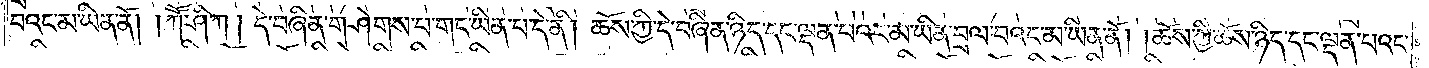བའང་མ་ཡིན་ནོ། །ཀཽ་ཤི་ཀ །དེ་བཞིན་གཤེགས་པ་གང་ཡིན་པ་དེ་ནི། ཆོས་ཀྱི་དེ་བཞིན་ཉིད་དང་ལྡན་པའང་མ་ཡིན་བྲལ་བའང་མ་ཡིན་ནོ། །ཆོས་ཀྱི་ཆོས་ཉིད་དང་ལྡན་པའང་
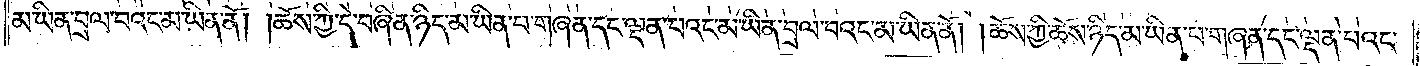མ་ཡིན་བྲལ་བའང་མ་ཡིན་ནོ། །ཆོས་ཀྱི་དེ་བཞིན་ཉིད་མ་ཡིན་པ་གཞན་དང་ལྡན་པའང་མ་ཡིན་བྲལ་བའང་མ་ཡིན་ནོ། །ཆོས་ཀྱི་ཆོས་ཉིད་མ་ཡིན་པ་གཞན་དང་ལྡན་པའང་
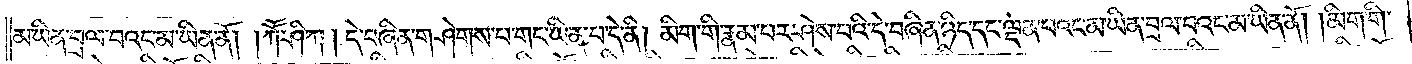མ་ཡིན་བྲལ་བའང་མ་ཡིན་ནོ། །ཀཽ་ཤི་ཀ །དེ་བཞིན་གཤེགས་པ་གང་ཡིན་པ་དེ་ནི། མིག་གི་རྣམ་པར་ཤེས་པའི་དེ་བཞིན་ཉིད་དང་ལྡན་པའང་མ་ཡིན་བྲལ་བའང་མ་ཡིན་ནོ། །མིག་གི་
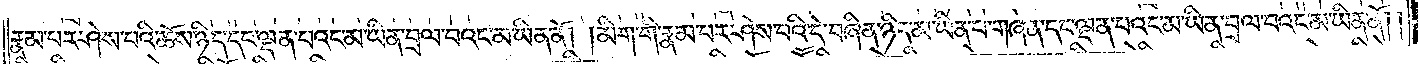རྣམ་པར་ཤེས་པའི་ཆོས་ཉིད་དང་ལྡན་པའང་མ་ཡིན་བྲལ་བའང་མ་ཡིན་ནོ། །མིག་གི་རྣམ་པར་ཤེས་པའི་དེ་བཞིན་ཉིད་མ་ཡིན་པ་གཞན་དང་ལྡན་པའང་མ་ཡིན་བྲལ་བའང་མ་ཡིན་ནོ། །
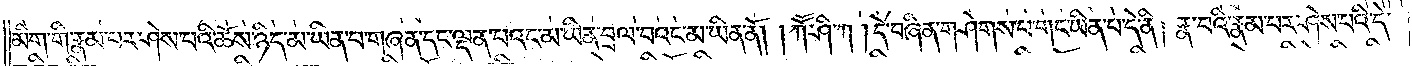མིག་གི་རྣམ་བར་ཤེས་པའི་ཆོས་ཉིད་མ་ཡིན་པ་གཞན་དང་ལྡན་པའང་མ་ཡིན་བྲལ་བའང་མ་ཡིན་ནོ། །ཀཽ་ཤི་ཀ །དེ་བཞིན་གཤེགས་པ་གང་ཡིན་པ་དེ་ནི། རྣ་བའི་རྣམ་པར་ཤེས་པའི་དེ་
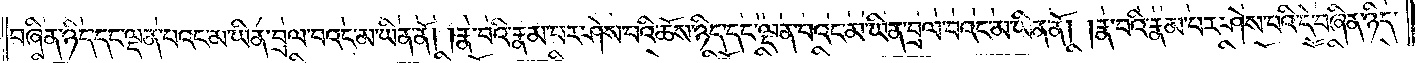བཞིན་ཉིད་དང་ལྡན་པའང་མ་ཡིན་བྲལ་བའང་མ་ཡིན་ནོ། །རྣ་བའི་རྣམ་པར་ཤེས་པའི་ཆོས་ཉིད་དང་ལྡན་པའང་མ་ཡིན་བྲལ་བའང་མ་ཡིན་ནོ། །རྣ་བའི་རྣམ་པར་ཤེས་པའི་དེ་བཞིན་ཉིད་
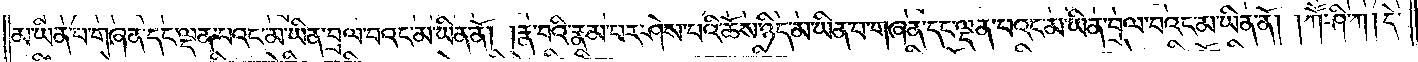མ་ཡིན་པ་གཞན་དང་ལྡན་པའང་མ་ཡིན་བྲལ་བའང་མ་ཡིན་ནོ། །རྣ་བའི་རྣམ་པར་ཤེས་པའི་ཆོས་ཉིད་མ་ཡིན་པ་གཞན་དང་ལྡན་པའང་མ་ཡིན་བྲལ་བའང་མ་ཡིན་ནོ། །ཀཽ་ཤི་ཀ །དེ་
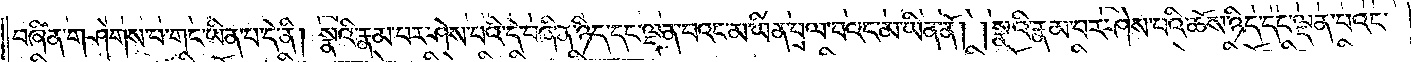བཞིན་གཤེགས་པ་གང་ཡིན་པ་དེ་ནི། སྣའི་རྣམ་པར་ཤེས་པའི་དེ་བཞིན་ཉིད་དང་ལྡན་པའང་མ་ཡིན་བྲལ་བའང་མ་ཡིན་ནོ། །སྣའི་རྣམ་པར་ཤེས་པའི་ཆོས་ཉིད་དང་ལྡན་པའང་
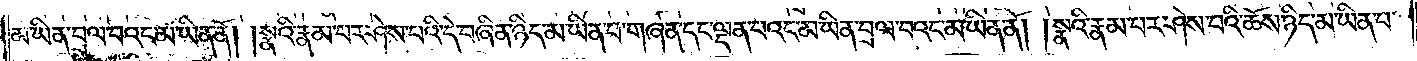མ་ཡིན་བྲལ་བའང་མ་ཡིན་ནོ། །སྣའི་རྣམ་པར་ཤེས་པའི་དེ་བཞིན་ཉིད་མ་ཡིན་པ་གཞན་དང་ལྡན་པའང་མ་ཡིན་བྲལ་བའང་མ་ཡིན་ནོ། །སྣའི་རྣམ་པར་ཤེས་པའི་ཆོས་ཉིད་མ་ཡིན་པ་
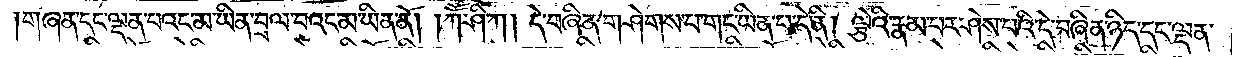གཞན་དང་ལྡན་པའང་མ་ཡིན་བྲལ་བའང་མ་ཡིན་ནོ། །ཀཽ་ཤི་ཀ །དེ་བཞིན་གཤེགས་པ་གང་ཡིན་པ་དེ་ནི། ལྕེའི་རྣམ་པར་ཤེས་པའི་དེ་བཞིན་ཉིད་དང་ལྡན་
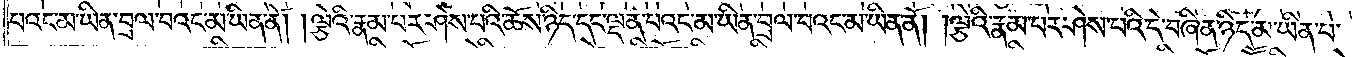པའང་མ་ཡིན་བྲལ་བའང་མ་ཡིན་ནོ། །ལྕེའི་རྣམ་པར་ཤེས་པའི་ཆོས་ཉིད་དང་ལྡན་པའང་མ་ཡིན་བྲལ་བའང་མ་ཡིན་ནོ། །ལྕེའི་རྣམ་པར་ཤེས་པའི་དེ་བཞིན་ཉིད་མ་ཡིན་པ་
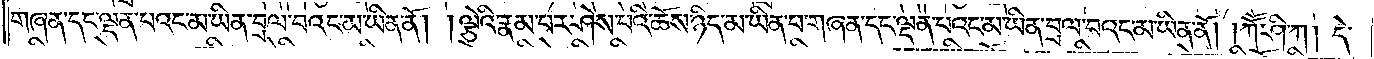གཞན་དང་ལྡན་པའང་མ་ཡིན་བྲལ་བའང་མ་ཡིན་ནོ། །ལྕེའི་རྣམ་པར་ཤེས་པའི་ཆོས་ཉིད་མ་ཡིན་པ་གཞན་དང་ལྡན་པའང་མ་ཡིན་བྲལ་བའང་མ་ཡིན་ནོ། །ཀཽ་ཤི་ཀ། དེ་
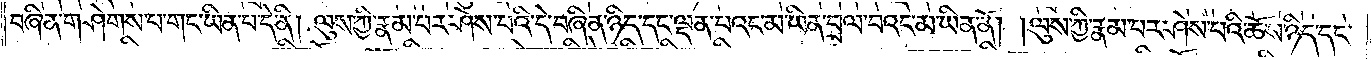བཞིན་གཤེགས་པ་གང་ཡིན་པ་དེ་ནི། ལུས་ཀྱི་རྣམ་པར་ཤེས་པའི་དེ་བཞིན་ཉིད་དང་ལྡན་པའང་མ་ཡིན་བྲལ་བའང་མ་ཡིན་ནོ། །ལུས་ཀྱི་རྣམ་པར་ཤེས་པའི་ཆོས་ཉིད་དང་
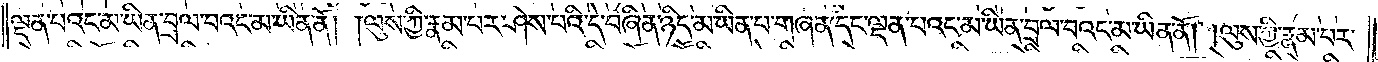ལྡན་པའང་མ་ཡིན་བྲལ་བའང་མ་ཡིན་ནོ། །ལུས་ཀྱི་རྣམ་པར་ཤེས་པའི་དེ་བཞིན་ཉིད་མ་ཡིན་པ་གཞན་དང་ལྡན་པའང་མ་ཡིན་བྲལ་བའང་མ་ཡིན་ནོ། །ལུས་ཀྱི་རྣམ་པར་
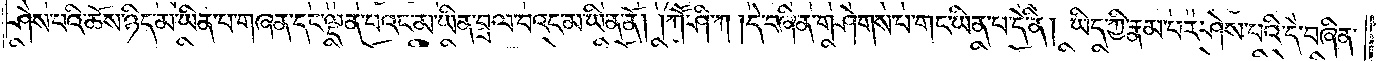ཤེས་པའི་ཆོས་ཉིད་མ་ཡིན་པ་གཞན་དང་ལྡན་པའང་མ་ཡིན་བྲལ་བའང་མ་ཡིན་ནོ། །ཀཽ་ཤི་ཀ །དེ་བཞིན་གཤེགས་པ་གང་ཡིན་པ་དེ་ནི། ཡིད་ཀྱི་རྣམ་པར་ཤེས་པའི་དེ་བཞིན་
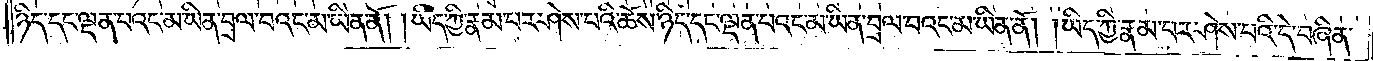ཉིད་དང་ལྡན་པའང་མ་ཡིན་བྲལ་བའང་མ་ཡིན་ནོ། །ཡིད་ཀྱི་རྣམ་པར་ཤེས་པའི་ཆོས་ཉིད་དང་ལྡན་པའང་མ་ཡིན་བྲལ་བའང་མ་ཡིན་ནོ། །ཡིད་ཀྱི་རྣམ་པར་ཤེས་པའི་དེ་བཞིན་
